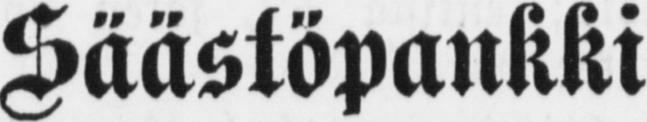Säästöpankki
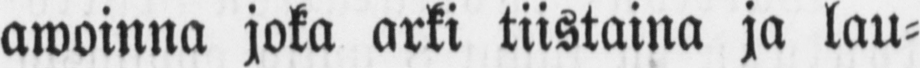awoinna joka arki tiistaina ja lau-
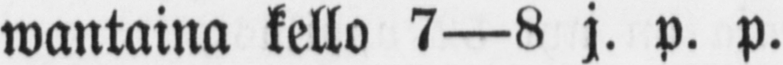wantaina kello 7 —8 j. p. p.
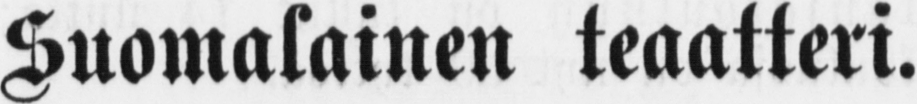Suomalainen teaatteri.
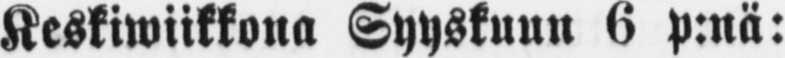Keskiwiikkona Syyskuun 6 p:nä:
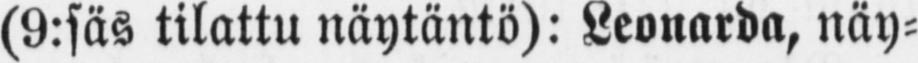(9:säs tilattu näytäntö): Leonardo, näy-
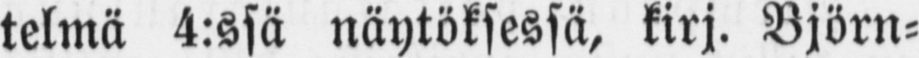telmä 4:ssä näytöksessä, kirj. Björn-
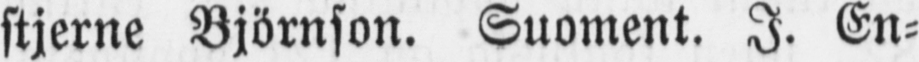stjerne Björnson. Suoment. J. En-
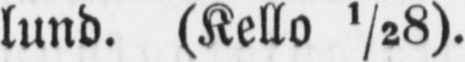lund. (Kello ½ 8).
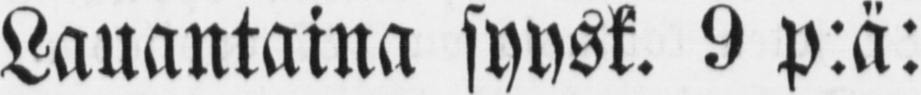Lauantaina syusk. 9 p:ä:
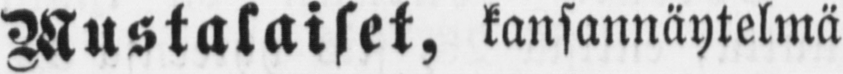Mustalaiset, kansannäytelmä
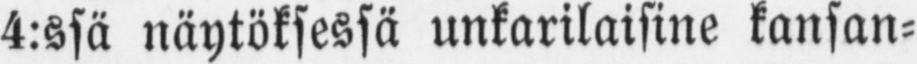4:ssä näytöksessä unkarilaisine kansan-
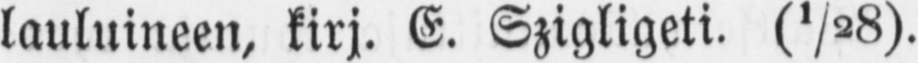lauluineen, kirj. E. Szigligeti. (½ 8).
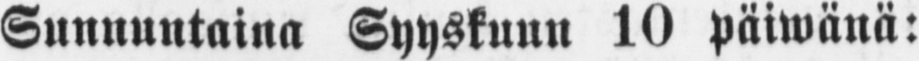Sunnuntaina Syyskuun 10 päiwänä:
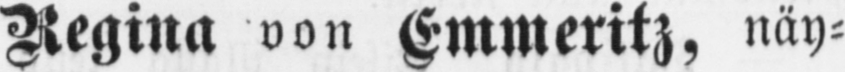Regina von Emmeritz, näy-
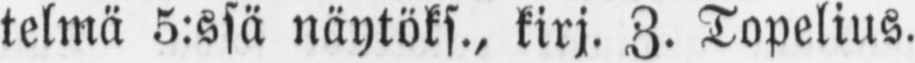telmä 5:ssä näytöks., kirj. Z. Topelius.
